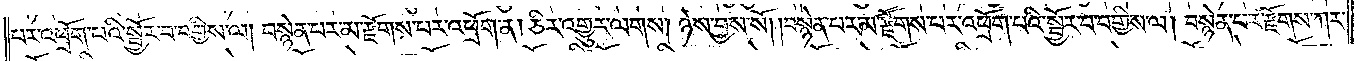པར་འཕྲོག་པའི་སྦྱོར་བ་བགྱིས་ལ། བསྙེན་པར་མ་རྫོགས་པར་འཕྲོག་ན། ཅིར་འགྱུར་ལགས། ཉེས་བྱས་སོ། །བསྙེན་པར་མ་རྫོགས་པར་འཕྲོག་པའི་སྦྱོར་བ་བགྱིས་ལ། བསྙེན་པར་རྫོགས་ཀར་
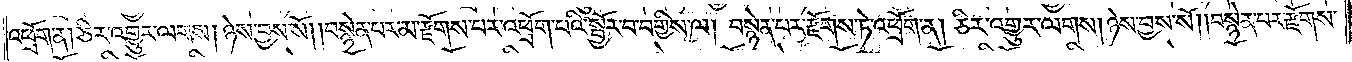འཕྲོག་ན། ཅིར་འགྱུར་ལགས། ཉེས་བྱས་སོ། །བསྙེན་པར་མ་རྫོགས་པར་འཕྲོག་པའི་སྦྱོར་བ་བགྱིས་ལ། བསྙེན་པར་རྫོགས་ཏེ་འཕྲོག་ན། ཅིར་འགྱུར་ལགས། ཉེས་བྱས་སོ། །བསྙེན་པར་རྫོགས་
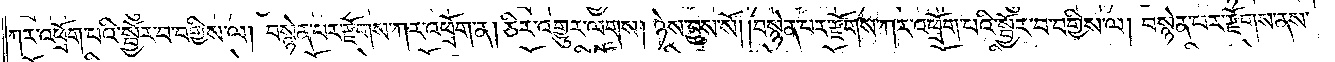ཀར་འཕྲོག་པའི་སྦྱོར་བ་བགྱིས་ལ། བསྙེན་པར་རྫོགས་ཀར་འཕྲོག་ན། ཅིར་འགྱུར་ལགས། ཉེས་བྱས་སོ། །བསྙེན་པར་རྫོགས་ཀར་འཕྲོག་པའི་སྦྱོར་བ་བགྱིས་ལ། བསྙེན་པར་རྫོགས་ནས་
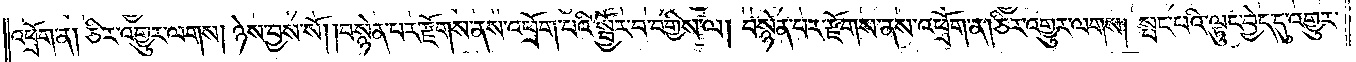འཕྲོག་ན། ཅིར་འགྱུར་ལགས། ཉེས་བྱས་སོ། །བསྙེན་པར་རྫོགས་ནས་འཕྲོག་པའི་སྦྱོར་བ་བགྱིས་ལ། བསྙེན་པར་རྫོགས་ནས་འཕྲོག་ན། ཅིར་འགྱུར་ལགས། སྤང་བའི་ལྟུང་བྱེད་དུ་འགྱུར་
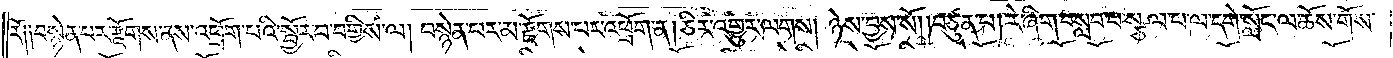རོ༑ ༑བསྙེན་པར་རྫོགས་ནས་འཕྲོག་པའི་སྦྱོར་བ་བགྱིས་ལ། བསྙེན་པར་མ་རྫོགས་པར་འཕྲོག་ན། ཅིར་འགྱུར་ལགས། ཉེས་བྱས་སོ། །བཙུན་པ། རེ་ཞིག་བསླབ་པ་སྩལ་པ་ལ་དགེ་སློང་ལ་ཆོས་གོས་
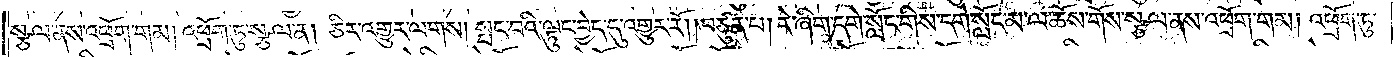སྩལ་ནས་འཕྲོག་གམ། འཕྲོག་ཏུ་སྩལ་ན། ཅིར་འགྱུར་ལགས། སྤང་བའི་ལྟུང་བྱེད་དུ་འགྱུར་རོ། །བཙུན་པ། རེ་ཞིག་དགེ་སློང་གིས་དགེ་སློང་མ་ལ་ཆོས་གོས་སྩལ་ནས་འཕྲོག་གམ། འཕྲོག་ཏུ་
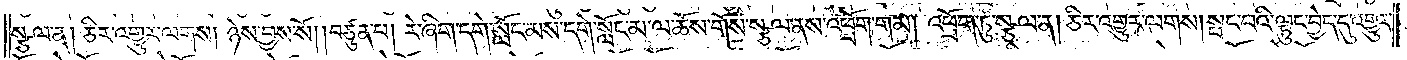སྩལ་ན། ཅིར་འགྱུར་ལགས། ཉེས་བྱས་སོ། །བཙུན་པ། རེ་ཞིག་དགེ་སློང་མས་དགེ་སློང་མ་ལ་ཆོས་གོས་སྩལ་ནས་འཕྲོག་གམ། འཕྲོག་ཏུ་སྩལ་ན། ཅིར་འགྱུར་ལགས། སྤང་བའི་ལྟུང་བྱེད་དུ་འགྱུར་
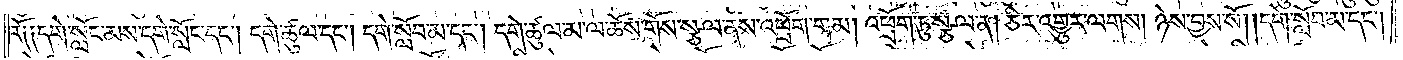རོ༑ ༑དགེ་སློང་མས་དགེ་སློང་དང༌། དགེ་ཚུལ་དང༌། དགེ་སློབ་མ་དང༌། དགེ་ཚུལ་མ་ལ་ཆོས་གོས་སྩལ་ནས་འཕྲོག་གམ། འཕྲོག་ཏུ་སྩལ་ན། ཅིར་འགྱུར་ལགས། ཉེས་བྱས་སོ། །དགེ་སློབ་མ་དང༌།
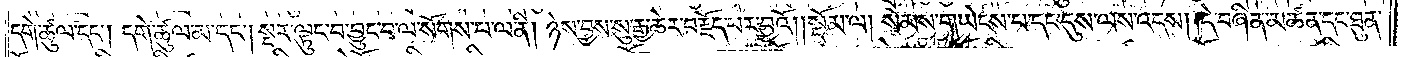དགེ་ཚུལ་དང༌། དགེ་ཚུལ་མ་དང༌། སྔར་ལྟུང་བ་བྱུང་བ་ལ་སོགས་པ་ལ་ནི། ཉེས་བྱས་སུ་རྒྱ་ཆེར་བརྗོད་པར་བྱའོ།    །སྡོམ་ལ། སེམས་གཡེངས་པ་དང་དུས་ལས་འདས། །དེ་བཞིན་མཚན་དང་ཐུན་
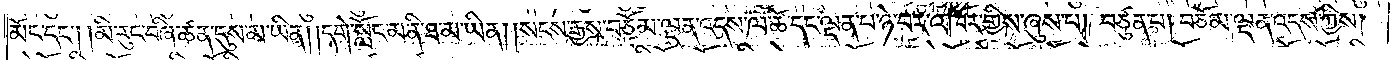མོང་དང༌། །མི་རུང་བཞི་ཚན་དུས་མ་ཡིན། །དགེ་སློང་མ་ནི་ཐ་མ་ཡིན། །སངས་རྒྱས་བཅོམ་ལྡན་འདས་ལ་ཚེ་དང་ལྡན་པ་ཉེ་བར་འཁོར་གྱིས་ཞུས་པ། བཙུན་པ། བཅོམ་ལྡན་འདས་ཀྱིས།
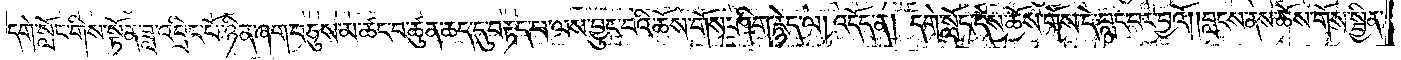དགེ་སློང་གིས་སྟོན་ཟླ་འབྲིང་པོ་ཉིན་ཞག་བཅུས་མ་ཚང་བ་ཚུན་ཆད་དུ་བརྟད་པ་ལས་བྱུང་བའི་ཆོས་གོས་ཤིག་རྙེད་ལ། འདོད་ན། དགེ་སློང་དེས་ཆོས་གོས་དེ་བླང་བར་བྱའོ། །བླངས་ནས་ཆོས་གོས་སྦྱིན་
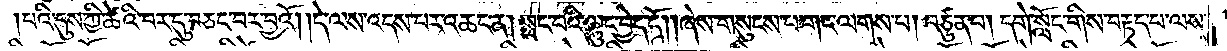།པའི་དུས་ཀྱི་ཚེའི་བར་དུ་བཅང་བར་བྱའོ། །དེ་ལས་འདས་པར་འཆང་ན། སྤང་པའི་ལྟུང་བྱེད་དོ། །ཞེས་གསུངས་པ་གང་ལགས་པ། བཙུན་པ། དགེ་སློང་གིས་བརྟད་པ་ལས་
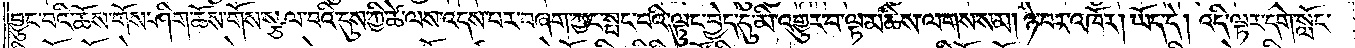བྱུང་བའི་ཆོས་གོས་ཤིག་ཆོས་གོས་སྩལ་པའི་དུས་ཀྱི་ཚེ་ལས་འདས་པར་བཞག་ཀྱང་སྤང་བའི་ལྟུང་བྱེད་དུ་མི་འགྱུར་བ་ལྟ་མཆིས་ལགས་སམ། ཉེ་བར་འཁོར། ཡོད་དེ། འདི་ལྟར་དགེ་སློང་
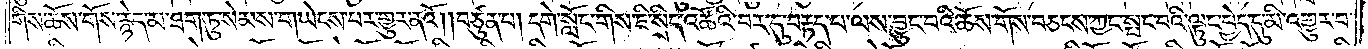གིས་ཆོས་གོས་རྙེད་མ་ཐག་ཏུ་སེམས་གཡེངས་པར་གྱུར་ནའོ། །བཙུན་པ། དགེ་སློང་གིས་ཇི་སྲིད་འཚོའི་བར་དུ་བརྟད་པ་ལས་བྱུང་བའི་ཆོས་གོས་བཅངས་ཀྱང་སྤང་བའི་ལྟུང་བྱེད་དུ་མི་འགྱུར་བ་
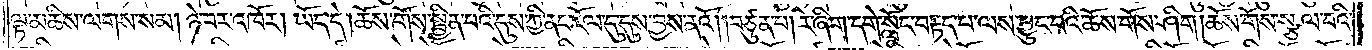ལྟ་མཆིས་ལགས་སམ། ཉེ་བར་འཁོར། ཡོད་དེ། ཆོས་གོས་སྦྱིན་པའི་དུས་ཀྱི་ནང་རོལ་དུ་དུས་བྱས་ནའོ། །བཙུན་པ། རེ་ཞིག་དགེ་སློང་བརྟད་པ་ལས་བྱུང་བའི་ཆོས་གོས་ཤིག །ཆོས་གོས་སྩལ་པའི་
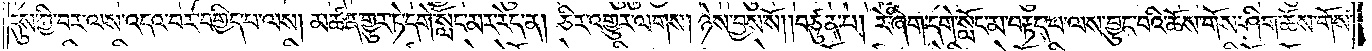དུས་ཀྱི་བར་ལས་འདའ་བར་བགྱིད་པ་ལས། མཚན་གྱུར་ཏེ་དགེ་སློང་མར་རེད་ན། ཅིར་འགྱུར་ལགས། ཉེས་བྱས་སོ། །བཙུན་པ། རེ་ཞིག་དགེ་སློང་མ་བརྟད་པ་ལས་བྱུང་བའི་ཆོས་གོས་ཤིག་ཆོས་གོས་
